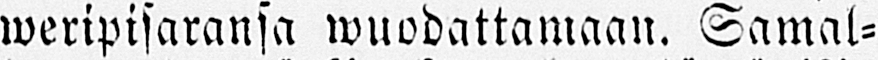weripisaransa wuodattamaan. Samal-
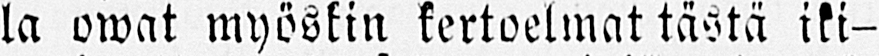la owat myöskin kertoelmat tästä iki-
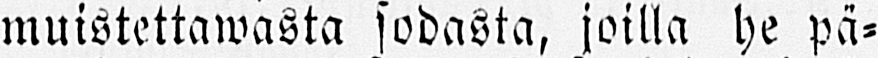muistettawasta sodasta, joilla he pä-
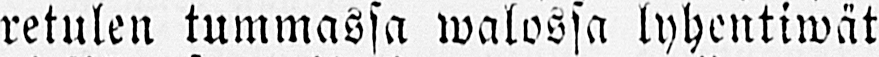retulen tummassa watossa lyhentiwät
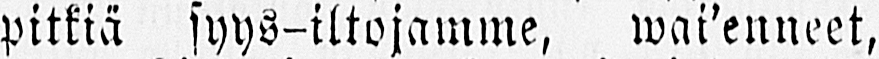pitkiä syys-iltojamme, wai'enneet,
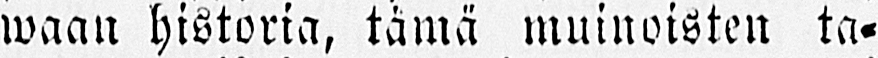waan historia, tämä muinoisten ta-
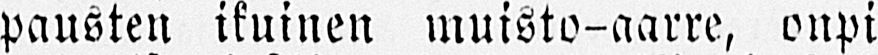pausten ikuinen muisto-aarre, onpi
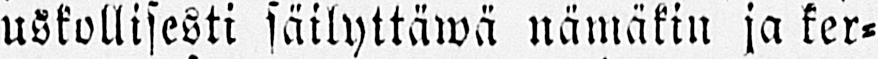uskollisesti säilyttäwä nämäkin ja ker-
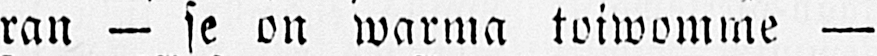ran — se on warma toiwemme —
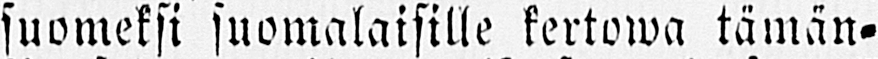suomeksi suomalaisille kertowa tämän-
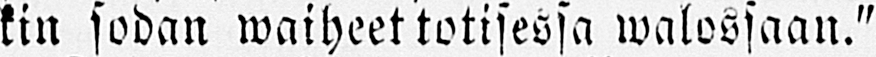kin sodan waiheet totisessa walossaan."
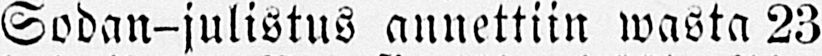Sodan-julistus annettiin wasta 23
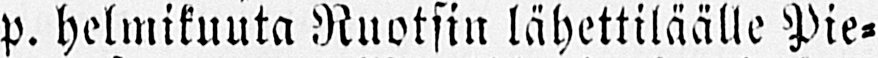p. helmikuuta Ruotsin lähettiläälle Pie-
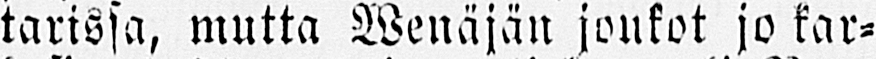tarissa, mutta Wenäjän joukot jo kar-
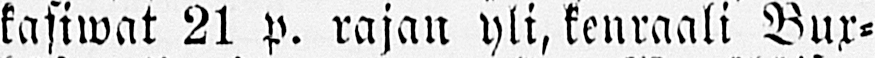kasiwat 21 p. rajan yli, kenraali Bux-
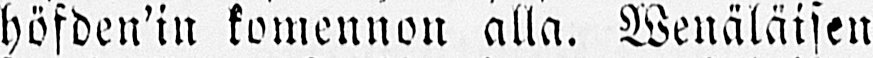höfden'in komennon alla. Wenäläisen
